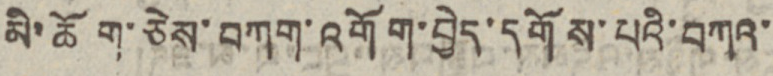མི་ཆོག་ཅེས་བཀག་འགོག་བྱེད་དགོས་པའི་བཀའ་
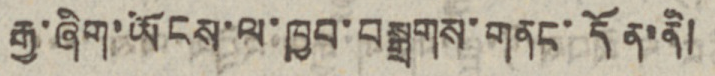རྒྱ་ཞིག་ཡོངས་ལ་ཁྱབ་བསྒྲགས་གནང་དོན་ནི།
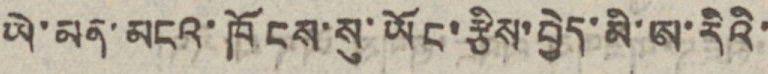ཡེ་མན་མངའ་ཁོངས་སུ་ཡོང་རྩིས་བྱེ་མི་ཨ་རིའི་
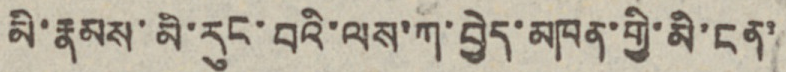མི་རྣམས་མི་རུང་བའི་ལས་ཀ་བྱེད་མཁན་གྱི་མི་ངན་
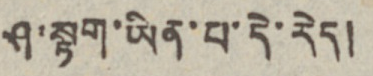ཤ་སྟག་ཡིན་པ་དེ་རེད།
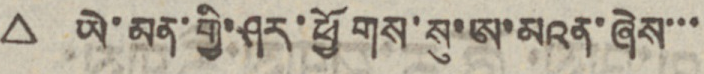△ ཡེ་མན་གྱི་ཤར་ཕྱོགས་སུ་ཨ་མའན་ཞེས་་་
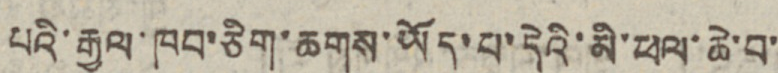པའི་རྒྱལ་ཁབ་ཅིག་ཆགས་ཡོད་པ་དེའི་མི་ཕལ་ཆེ་བ་
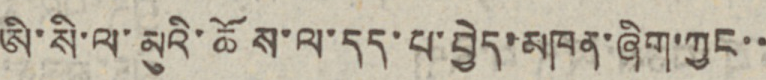ཨི་སི་ལ་མུའི་ཆོས་ལ་དད་པ་བྱེད་མཁན་ཞིག་ཀྱང་་
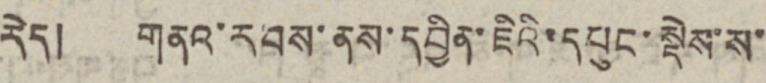རེད། གནའ་རབས་ནས་དབྱིན་ཇིའི་དཔུང་སྡེས་ས་
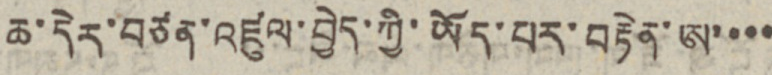ཆ་དེར་བཙན་འཛུལ་བྱེད་ཀྱི་ཡོད་པར་བརྟེན་ཨ་་་་
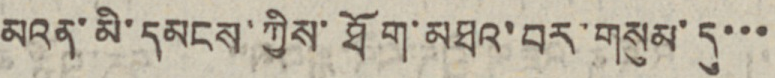མའན་མི་དམངས་ཀྱིས་ཐོག་མཐའ་བར་གསུམ་དུ་་་
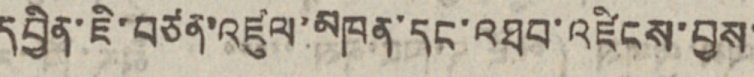དབྱིན་ཇི་བཙན་འཛུལ་མཁན་དང་འཐབ་འཛིངས་བྱས་
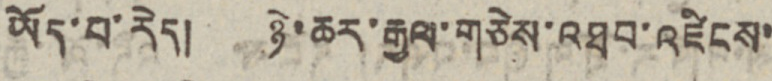ཡོད་པ་རེད། ཉེ་ཆར་རྒྱལ་གཅེས་འཐབ་འཛིངས་
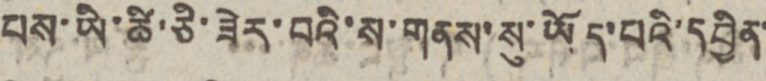པས་ཡི་ཚི་ཅི་ཟེར་བའི་ས་གནས་སུ་ཡོད་པའི་དབྱིན་
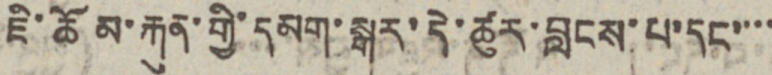ཇི་ཆོམ་རྐུན་གྱི་དམག་སྒར་དེ་ཚུར་བླངས་པ་དང་་་་
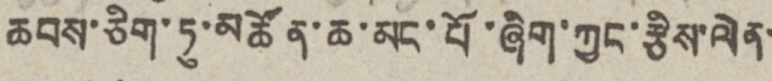ཆབས་ཅིག་ཏུ་མཚོན་ཆ་མང་པོ་ཞིག་ཀྱང་རྩིས་ལེན་
